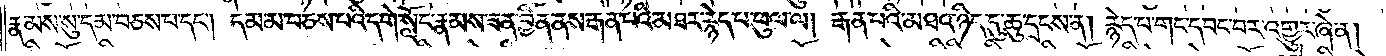རྣམས་སུ་དམ་བཅས་པ་དང༌། དམ་མ་བཅས་པའི་དགེ་སློང་རྣམས་ཟན་བྱིན་ནས་རྒན་པའི་མཐར་རྙེད་པ་ཕུལ་ལ། རྒན་པའི་མཐའ་ཉིད་དུ་ཆུ་དྲངས་ན། རྙེད་པ་གང་དབང་བར་འགྱུར་ཞེ་ན།
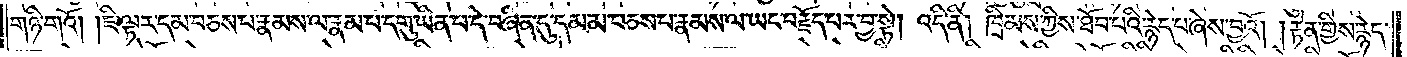གཉི་གའོ། །ཇི་ལྟར་དམ་བཅས་པ་རྣམས་ལ་རྣམ་པ་དགུ་ཡིན་པ་དེ་བཞིན་དུ་དམ་མ་བཅས་པ་རྣམས་ལ་ཡང་བརྗོད་པར་བྱ་སྟེ། འདི་ནི། ཁྲིམས་ཀྱིས་ཐོབ་པའི་རྙེད་པ་ཞེས་བྱའོ། །རྟེན་གྱིས་རྙེད་
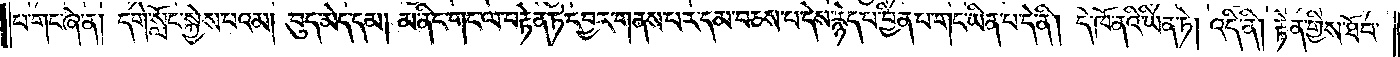པ་གང་ཞེ་ན། དགེ་སློང་སྐྱེས་པའམ། བུད་མེད་དམ། མ་ནིང་གང་ལ་བརྟེན་ཏེ་དབྱར་གནས་པར་དམ་བཅས་པ་དེས་རྙེད་པ་བྱིན་པ་གང་ཡིན་པ་དེ་ནི། དེ་ཁོ་ནའི་ཡིན་ཏེ། འདི་ནི། རྟེན་གྱིས་ཐོབ་
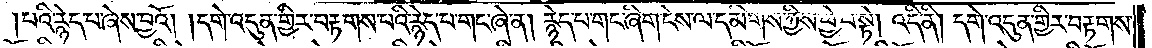པའི་རྙེད་པ་ཞེས་བྱའོ། །དགེ་འདུན་གྱིར་བརྟགས་པའི་རྙེད་པ་གང་ཞེ་ན། རྙེད་པ་གང་ཞིག་ངེས་ལ་དམིགས་ཀྱིས་ཕྱེ་བ་སྟེ། འདི་ནི། དགེ་འདུན་གྱིར་བརྟགས་
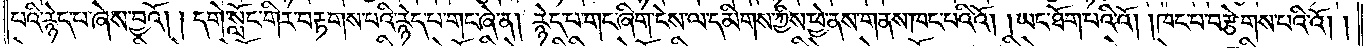པའི་རྙེད་པ་ཞེས་བྱའོ། །དགེ་སློང་གིར་བརྟགས་པའི་རྙེད་པ་གང་ཞེ་ན། རྙེད་པ་གང་ཞིག་ངེས་ལ་དམིགས་ཀྱིས་ཕྱེ་ནས་གནས་ཁང་པའི་འོ། །ཡང་ཐོག་པའི་འོ། །ཁང་པ་བརྩེགས་པའི་འོ། །
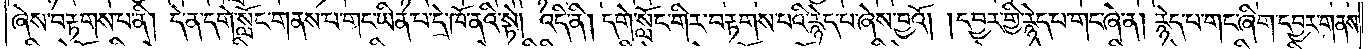ཞེས་བརྟགས་པ་ནི། དེ་ན་དགེ་སློང་གནས་པ་གང་ཡིན་པ་དེ་ཁོ་ནའི་སྟེ། འདི་ནི། དགེ་སློང་གིར་བརྟགས་པའི་རྙེད་པ་ཞེས་བྱའོ། །དབྱར་གྱི་རྙེད་པ་གང་ཞེ་ན། རྙེད་པ་གང་ཞིག་དབྱར་གནས་
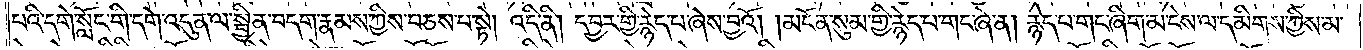པའི་དགེ་སློང་གི་དགེ་འདུན་ལ་སྦྱིན་བདག་རྣམས་ཀྱིས་བཅས་པ་སྟེ། འདི་ནི། དབྱར་གྱི་རྙེད་པ་ཞེས་བྱའོ། །མངོན་སུམ་གྱི་རྙེད་པ་གང་ཞེ་ན། རྙེད་པ་གང་ཞིག་མ་ངེས་ལ་དམིགས་ཀྱིས་མ་
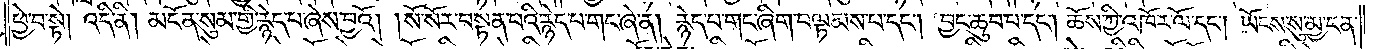ཕྱེ་བ་སྟེ། འདི་ནི། མངོན་སུམ་གྱི་རྙེད་པ་ཞེས་བྱའོ། །སོ་སོར་བསྟན་པའི་རྙེད་པ་གང་ཞེ་ན། རྙེད་པ་གང་ཞིག་བལྟམས་པ་དང༌། བྱང་ཆུབ་པ་དང༌། ཆོས་ཀྱི་འཁོར་ལོ་དང༌། ཡོངས་སུ་མྱ་ངན་
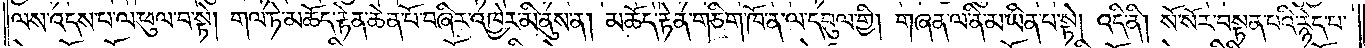ལས་འདས་པ་ལ་ཕུལ་བ་སྟེ། གལ་ཏེ་མཆོད་རྟེན་ཆེན་པོ་བཞིར་འཁྱེར་མི་ནུས་ན། མཆོད་རྟེན་གཅིག་ཁོ་ན་ལ་དབུལ་གྱི། གཞན་ལ་ནི་མ་ཡིན་པ་སྟེ། འདི་ནི། སོ་སོར་བསྟན་པའི་རྙེད་པ་
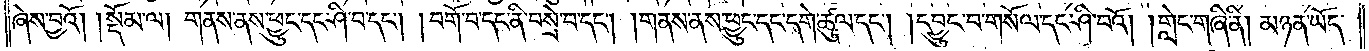ཞེས་བྱའོ།    །སྡོམ་ལ། གནས་ནས་ཕྱུང་དང་ཤི་བ་དང༌། བགོ་བ་དང་ནི་བསྲེ་བ་དང༌། །གནས་ནས་ཕྱུང་དང་དགེ་ཚུལ་དང༌། །དབྱུང་བ་གསོལ་དང་ཤི་བའོ། །གླེང་གཞི་ནི། མཉན་ཡོད་
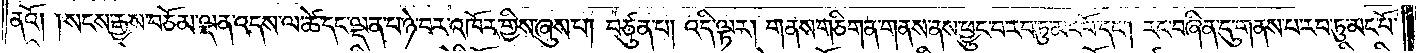ནའོ། །སངས་རྒྱས་བཅོམ་ལྡན་འདས་ལ་ཚེ་དང་ལྡན་པ་ཉེ་བར་འཁོར་གྱིས་ཞུས་པ། བཙུན་པ། འདི་ལྟར། གནས་གཅིག་ན་གནས་ནས་ཕྱུང་བ་རབ་ཏུ་མང་པོ་དང༌། རང་བཞིན་དུ་གནས་པ་རབ་ཏུ་མང་པོ་
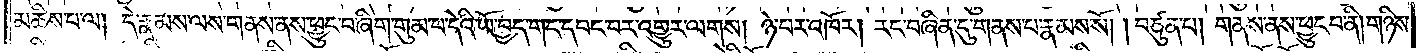མཆིས་པ་ལ། དེ་རྣམས་ལས་གནས་ནས་ཕྱུང་བ་ཞིག་གུམ་པ་དེའི་ཡོ་བྱད་གང་དབང་བར་འགྱུར་ལགས། ཉེ་བར་འཁོར། རང་བཞིན་དུ་གནས་པ་རྣམས་སོ། །བཙུན་པ། གནས་ནས་ཕྱུང་བ་ནི། གཉིས་
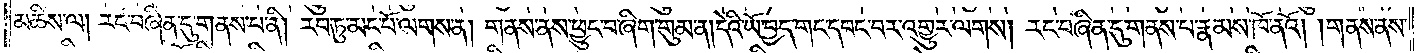མཆིས་ལ། རང་བཞིན་དུ་གནས་པ་ནི། རབ་ཏུ་མང་པོ་ལགས་ན། གནས་ནས་ཕྱུང་བ་ཞིག་གུམ་ན། དེའི་ཡོ་བྱད་གང་དབང་བར་འགྱུར་ལགས། རང་བཞིན་དུ་གནས་པ་རྣམས་ཁོ་ནའོ། །གནས་ནས་
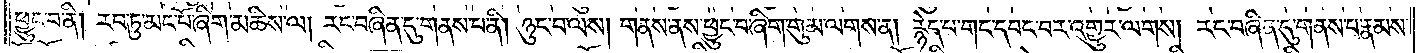ཕྱུང་བ་ནི། རབ་ཏུ་མང་པོ་ཞིག་མཆིས་ལ། རང་བཞིན་དུ་གནས་པ་ནི། ཉུང་བ་ལས། གནས་ནས་ཕྱུང་བ་ཞིག་གུམ་ལགས་ན། རྙེད་པ་གང་དབང་བར་འགྱུར་ལགས། རང་བཞིན་དུ་གནས་པ་རྣམས་
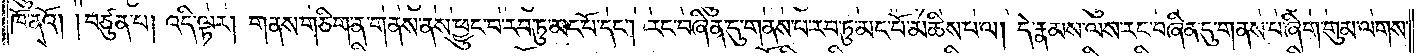ཁོ་ནའོ། །བཙུན་པ། འདི་ལྟར། གནས་གཅིག་ན་གནས་ནས་ཕྱུང་བ་རབ་ཏུ་མང་པོ་དང༌། རང་བཞིན་དུ་གནས་པ་རབ་ཏུ་མང་པོ་མཆིས་པ་ལ། དེ་རྣམས་ལས་རང་བཞིན་དུ་གནས་པ་ཞིག་གུམ་ལགས་
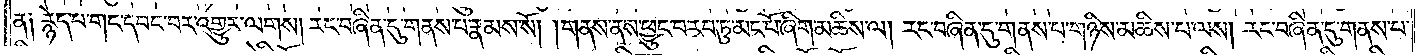ན། རྙེད་པ་གང་དབང་བར་འགྱུར་ལགས། རང་བཞིན་དུ་གནས་པ་རྣམས་སོ། །གནས་ནས་ཕྱུང་བ་རབ་ཏུ་མང་པོ་ཞིག་མཆིས་ལ། རང་བཞིན་དུ་གནས་པ་གཉིས་མཆིས་པ་ལས། རང་བཞིན་དུ་གནས་པ་
